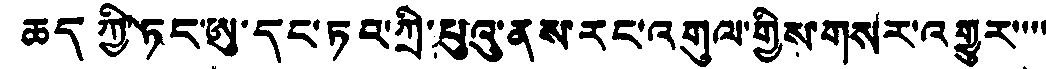ཆད ཀྱི་ཏང་ཨུ་དང་ཏབ་ཀྲི་པུའུ་ནས་རང་འགུལ་གྱིས་གསར་འགྱུར་་་་
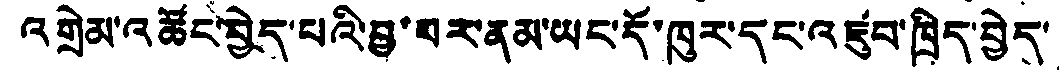འགྲེམ་འཚོང་བྱེད་པའི་བྱ་བར་ནམ་ཡང་དོ་ཁུར་དང་འཛུབ་ཁྲིད་བྱེད་
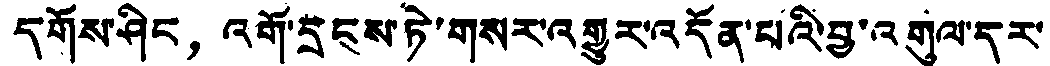དགོས་ཤིང， འགོ་དྲངས་ཏེ་གསར་འགྱུར་འདོན་པའི་བྱ་འགུལ་དར་
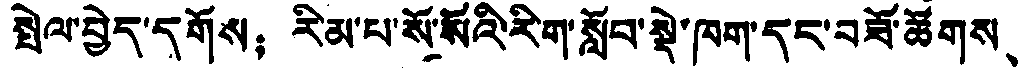སྤེལ་བྱེད་དགོས； རིམ་པ་སོ་སོའི་རིག་སློབ་སྡེ་ཁག་དང་བཟོ་ཚོགས、
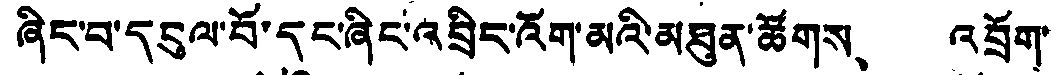ཞིང་བ་དབུལ་བོ་དང་ཞིང་འབྲིང་འོག་མའི་མཐུན་ཚོགས、 འབྲོག་
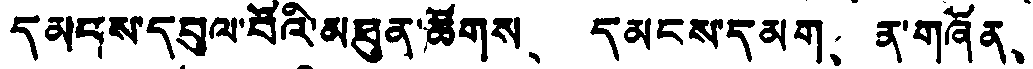དམགས་དབུལ་བོའི་མཐུན་ཚོགས、 དམངས་དམག、 ན་གཞོན、
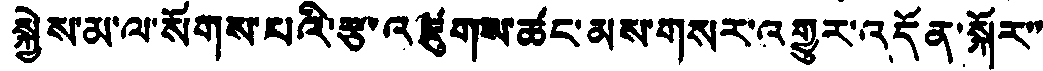སྐྱེས་མ་ལ་སོགས་པའི་རྩ་འཛུགས་ཚང་མས་གསར་འགྱུར་འདོན་སྐོར་་
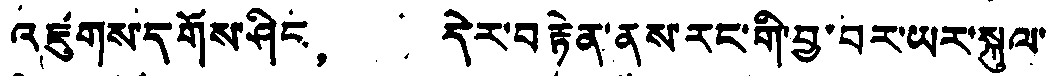འཛུགས་དགོས་ཤིང， དེར་བརྟེན་ནས་རང་གི་བྱ་བར་ཡར་སྐུལ་
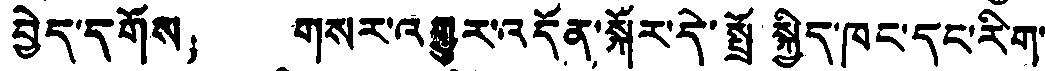བྱེད་དགོས； གསར་འགྱུར་འདོན་སྐོར་དེ་སྤྲོ སྐྱིད་ཁང་དང་རིག་
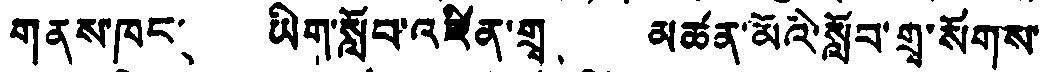གནས་ཁང、 ཡིག་སློབ་འཛིན་གྲྭ、 མཚན་མོའི་སློབ་གྲྭ་སོགས་
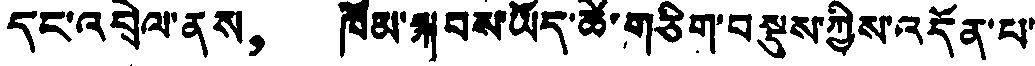དང་འབྲེལ་ནས， ཁོམ་སྐབས་ཡོད་ཚེ་གཅིག་བསྡུས་ཀྱིས་འདོན་པ་
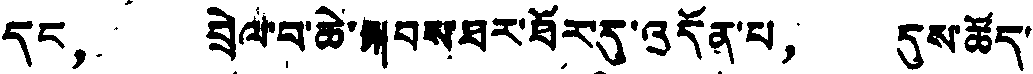དང， བྲེལ་བ་ཆེ་སྐབས་ཐར་ཐོར་དུ་འདོན་པ， དུས་ཚོད་
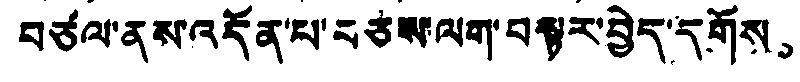བཙལ་ནས་འདོན་པ་བཙས་ལག་བསྟར་བྱེད་དགོས。
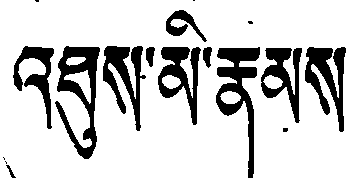འཐུས་མི་རྣམས
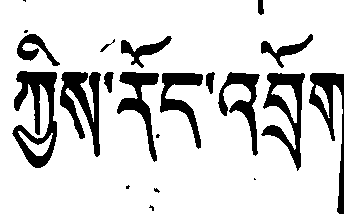ཀྱིས་རོད་འབྲོག
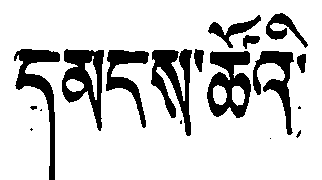དམདས་ཚོའི་
